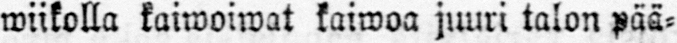wiikolla kaiwoiwat kaiwoa juuri talon pää-
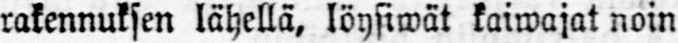rakennuksen lähellä, löysiwät kaiwajat noin
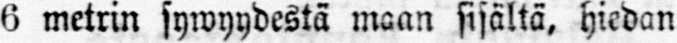6 metrin sywyydestä maan sisältä, hiedan
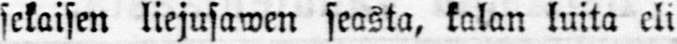sekaisen liejusawen seasta, kalan luita eli
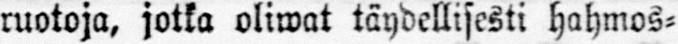rustoja, jotka oliwat täydellisesti hahmos-
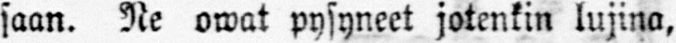saan. Ne owat pysyneet jotenkin lujina,
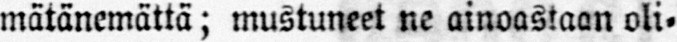mätänemättä; mustuneet ne ainoastaan oli-
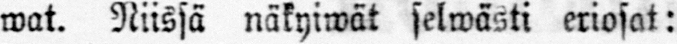wat. Niissä näkyiwät selwästi eriosat:
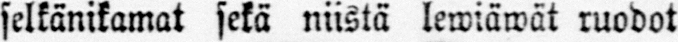selkänikamat sekä niistä lewiäwät ruodot
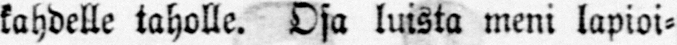kahdelle taholle. Osa luista meni lapioi-
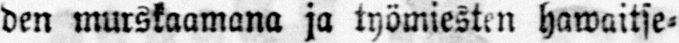den murskaamana ja työmiesten hawaitse-
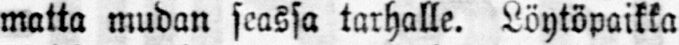matta mudan seassa tarhalle. Löytöpaikka
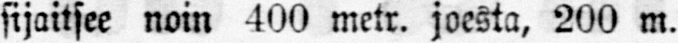sijaitsee noin 400 metr. joesta, 200 m.
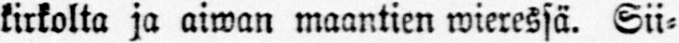kirkolta ja aiwan maantien wieressä. Sii-
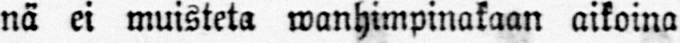nä ei muisteta wanhimpinakaan aikoina
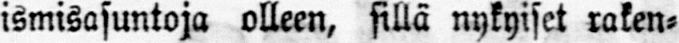ismisasuntoja olleen, sillä nykyiset raken-
